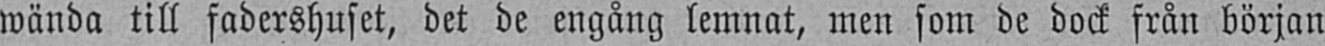wända till fadershuset, det de engång lemnat, men som de dock från början
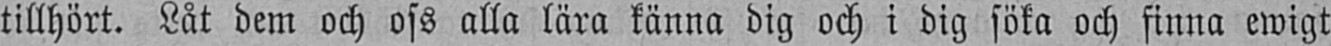tillhört. Låt dem och oss alla lära känna dig och i dig söka och finna ewigt
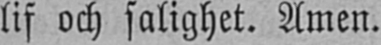lif och salighet. Amen.
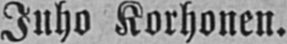Juho Korhonen.
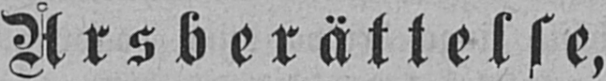Årsberättelse,
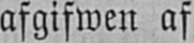afgifwen af
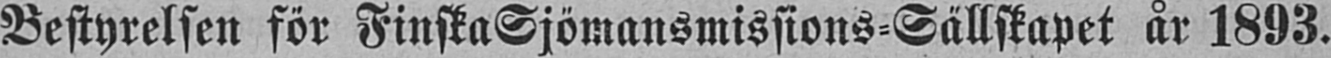Bestyrelsen för FinskaSjömansmissions-Sällskapet år 1893.
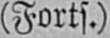(Forts.)
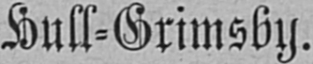Hull-Grimsby.
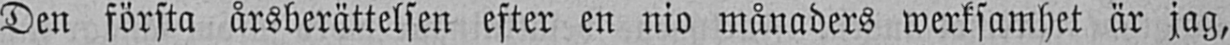Den första årsberättelsen efter en nio månaders werksamhet är jag,
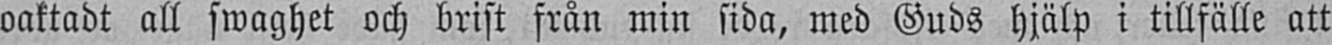oaktadt all swaghet och brist från min sida, med Guds hjälp i tillfälle att
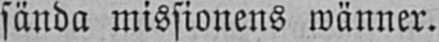sända missionens wänner.
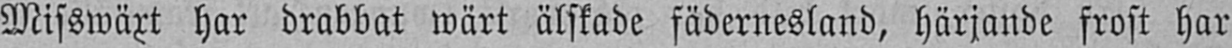Misswäxt har drabbat wärt älskade fädernesland, härjande frost har
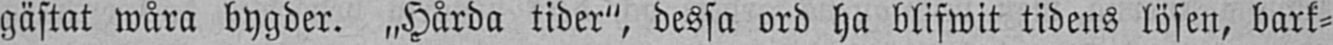gästat wåra bygder. „Hårda tider", dessa ord ha blifwit tidens lösen, bark-
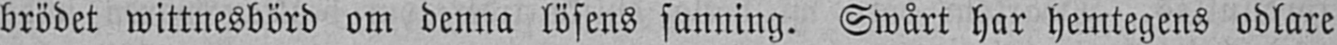brödet wittnesbörd om denna lösens sanning. Swårt har hemtegens odlare
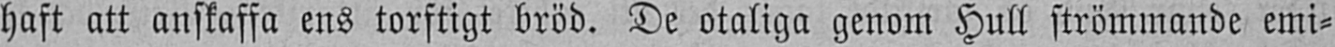haft att anskaffa ens torftigt bröd. De otaliga genom Hull strömmande emi-
